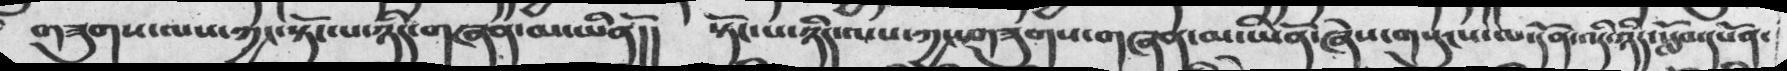གཟུགས་ལས་ཀྱང་སྟོང་པ་ཉིད་གཞན་མ་ཡིནོ།།  སྟོང་པ་ཉིད་ལས་ཀྱང་གཟུགས་གཞན་མ་ཡིནོ་ཞེས་གསུངས་ལ་དོན་འདི་ཉིད་སློབ་དཔོན་
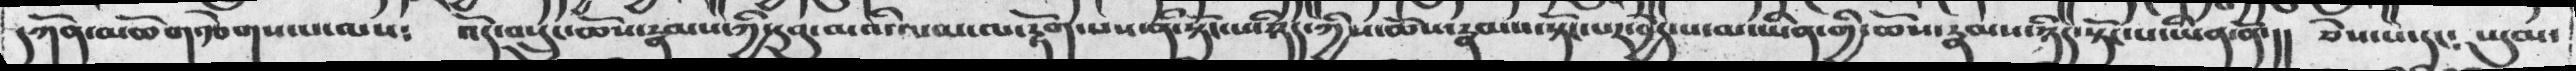དཀོན་མཆོག་རྩེགས་པ་ལས༴་    འོད་བསྲུང་ཆོས་རྣམས་ཀྱི་དབུ་མའི་ལམ་ལ་རྟོ་པས་ནི་སྟོང་པ་ཉིད་ཀྱིས་ཆོས་རྣམས་སྟོང་པར་བྱེད་པ་མ་ཡིན་གྱི་ཆོས་རྣམས་ཉིད་སྟོང་པ་ཉིད་ཡིན་ནོ་།།   ཅེས་པ་དང་ཡུམ་
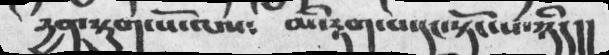དྱན་སྡུག་པོ་ལས༴   མི་རྟག་པ་དང་སྟོང་པ་ཉིད།།
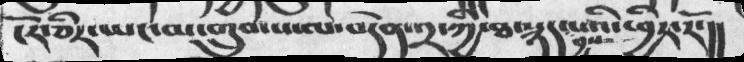ངོར་ཅིར་ཡང་མ་གྲུབ་པ་ལ་བདེན་༢་ཀྱི་ཐ་སྙད་བྱས་པའི་ཕྱིར་རོ་།།
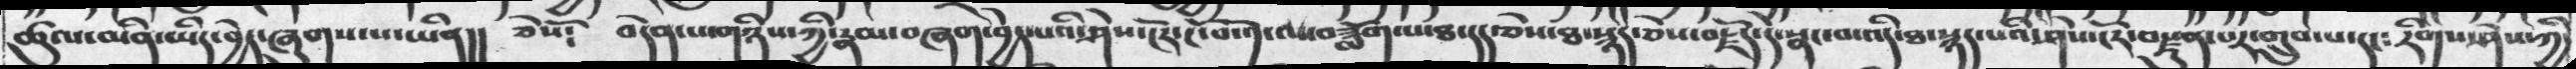ཚུལ་མིན་ཡིད་བྱེད་ཞུགས་པ་ཡིན།། ཅེསོ༴ བདེན་གཉིས་ཀྱི་རྣམ་བཞག་བྱེད་པའི་ཤེས་ངོར་ངོ་བོ་༡་ལ་བཟློག་པ་ཐ་དད་ཅེས་ཐ་སྙད་ཅེས་བརྗོད་དེ་སྣང་བ་འདི་ཐ་སྙད་པའི་ཤེས་ངོར་བསྫུན་པར་གྲུབ་པ་དང༴ རིགས་ཤེས་ཀྱི
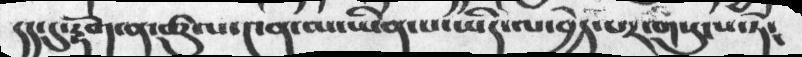དད་དུ་རྟོག་ན་ཚུལ་༤ན་མ་ཡིན་པ་ཡིད་ལ་བྱེད་པར་གསུངས་ཏེ༴
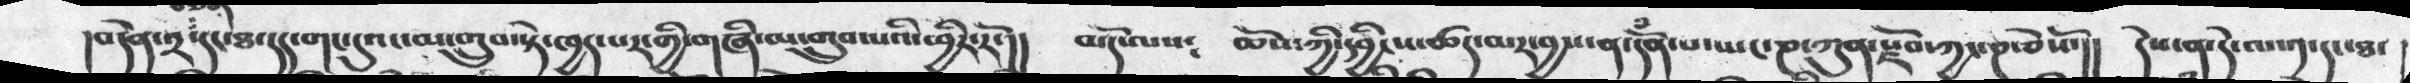།བདེན་༢་དང་ཐ་དད་གང་དུའང་མ་གྲུབ་སྟེ་ཁྱད་པར་གྱི་གཞི་མ་གྲུབ་པའི་ཕྱིར་རོ་།། མདོ་ལས༴ ཆོས་ཀྱི་དབྱིངས་ཚད་མར་བྱས་ན་དོཾན་པ་ཡང་ཎ་ཀུན་སྫོབ་ཀྱང་ཎ་ཅེསོ་།། དེས་ན་དེ་ལ་༡་དང་ཐ་
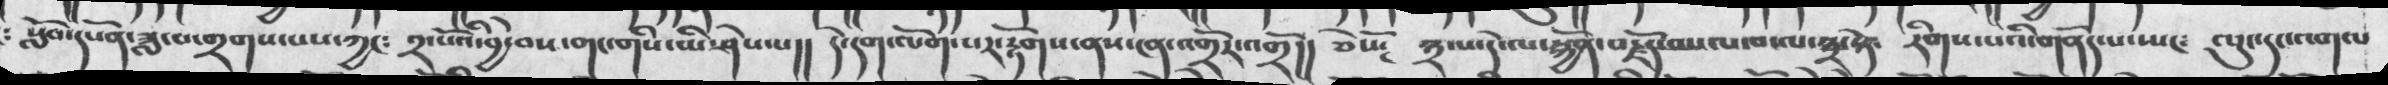སློབ་དཔོན་ཟླ་བ་གྲགས་པས་ཀྱང༴ ༢་པོའི་དབྱེ་བས་གང་གིས་ཡི་ཤེས་པ།། དེ་དག་ལོག་པར་རྟོགས་ནས་ངན་འགྲོར་འགྲོ།། ཅེསོ༴ ༣་པ་དེ་ལ་སྐྱོན་བརྗོད་བསལ་བ་ལ་༣་སྟེ༴ རིགས་པའི་གནོད་པ་ཡང༴ ལུང་དང་འགལ
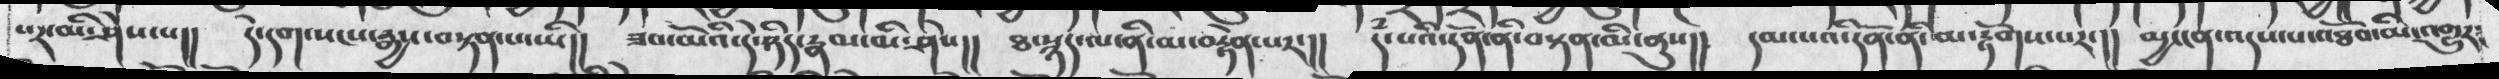པར་མི་ཤེས་པ།། དེ་དག་སངས་རྒྱས་བསྟན་པ་ཡི།། ཟབ་མོའི་དེ་ཉིད་རྣམ་མི་ཤེས།། ཐ་སྙད་ལ་ནི་མ་བརྟེན་པར་།། དཾ་པའི་དོན་ནི་བསྟན་མི་ནུས།། དམ་པའི་དོན་ནི་མ་རྟོགས་པར་།། མྱ་ངན་འདས་པ་འཐོབ་མི་འགྱུར་
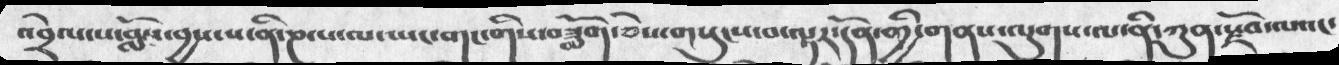འབྲེལ་པ་བློས་བྱས་པ་ནི་ཎ་པ་ལ་ཡང་གང་གིས་བཟློག་ཅེས་གསུངས་བ་ལྟར་དོན་གྱི་གནས་ལུགས་ལ་ནི་ཀུན་སྫོབ་ལའང་
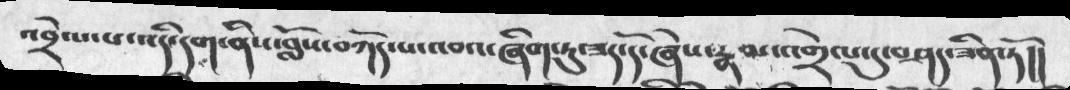འབྲེལ་པ་འདི་དག་ནིས་བློས་བཀོད་པ་འབའ་ཞིག་ཏུ་ཟད་དོ་ཞེས་རྣམ་འགྲེལ་དུ་བཤད་ཟིན་ཏོ།།
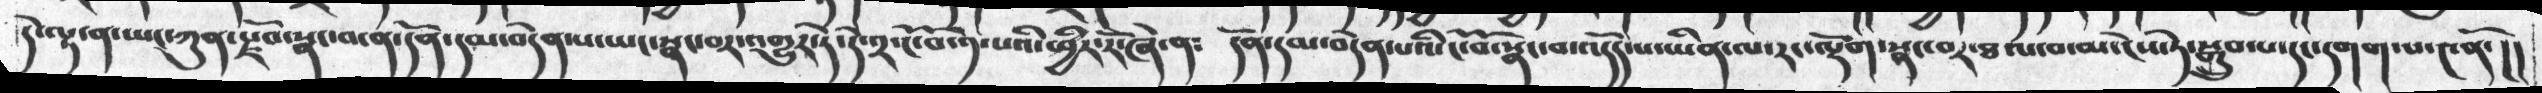དེ་ལྟ་ན་ཡང་ཀུན་སྫོབ་སྣང་བ་ན་དོན་དམ་བདེན་པ་ཡང་སྣང་བར་འགྱུར་ཏེ་དེ་༢་ངོ་བོ་༡་པའི་ཕྱིར་རོ་ཞེ་ན༴  དོན་དམ་བདེན་པའི་ངོ་བོ་སྣང་བ་འདོད་པ་ཡིན་ལ་རང་ལྡོག་སྣང་བར་ཐལ་བ་མ་ངེས་ཏེ་སྒྲུབ་པ་དང་དགག་པ་༤ནོ་།།
